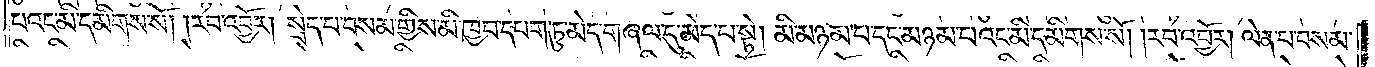པའང་མི་དམིགས་སོ། །རབ་འབྱོར། སྲེད་པ་བསམ་གྱིས་མི་ཁྱབ་དཔག་ཏུ་མེད་གཞལ་དུ་མེད་པ་སྟེ། མི་མཉམ་པ་དང་མཉམ་པའང་མི་དམིགས་སོ། །རབ་འབྱོར། ལེན་པ་བསམ་
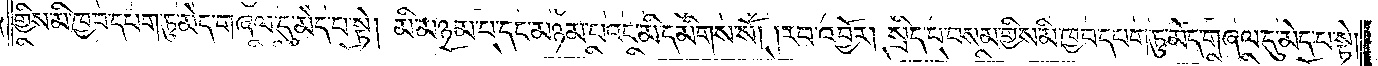གྱིས་མི་ཁྱབ་དཔག་ཏུ་མེད་གཞལ་དུ་མེད་པ་སྟེ། མི་མཉམ་པ་དང་མཉམ་པའང་མི་དམིགས་སོ། །རབ་འབྱོར། སྲིད་པ་བསམ་གྱིས་མི་ཁྱབ་དཔག་ཏུ་མེད་གཞལ་དུ་མེད་པ་སྟེ།
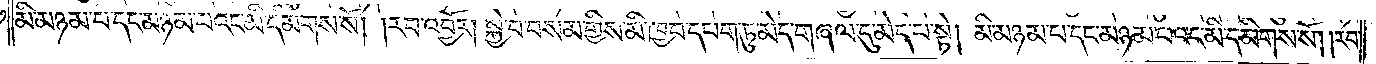མི་མཉམ་པ་དང་མཉམ་པའང་མི་དམིགས་སོ། །རབ་འབྱོར། སྐྱེ་བ་བསམ་གྱིས་མི་ཁྱབ་དཔག་ཏུ་མེད་གཞལ་དུ་མེད་པ་སྟེ། མི་མཉམ་པ་དང་མཉམ་པའང་མི་དམིགས་སོ། །རབ་
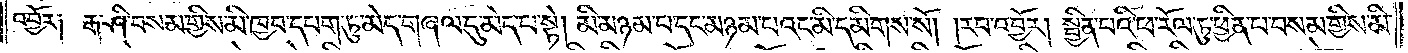འབྱོར༑ རྒ་ཤི་བསམ་གྱིས་མི་ཁྱབ་དཔག་ཏུ་མེད་གཞལ་དུ་མེད་པ་སྟེ། མི་མཉམ་པ་དང་མཉམ་པའང་མི་དམིགས་སོ། །རབ་འབྱོར། སྤྱན་པའི་ཕ་རོལ་ཏུ་ཕྱིན་པ་བསམ་གྱིས་མི་
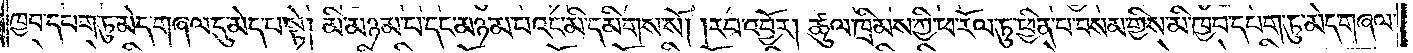ཁྱབ་དཔག་ཏུ་མེད་གཞལ་དུ་མེད་པ་སྟེ། མི་མཉམ་པ་དང་མཉམ་པའང་མི་དམིགས་སོ། །རབ་འབྱོར། ཚུལ་ཁྲིམས་ཀྱི་ཕ་རོལ་ཏུ་ཕྱིན་པ་བསམ་གྱིས་མི་ཁྱབ་དཔག་ཏུ་མེད་གཞལ་
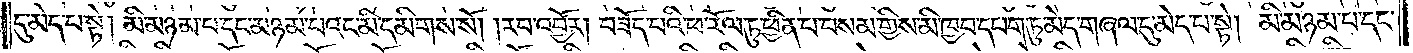དུ་མེད་པ་སྟེ། མི་མཉམ་པ་དང་མཉམ་པའང་མི་དམིགས་སོ། །རབ་འབྱོར། བཟོད་པའི་ཕ་རོལ་ཏུ་ཕྱིན་པ་བསམ་གྱིས་མི་ཁྱབ་དཔག་ཏུ་མེད་གཞལ་དུ་མེད་པ་སྟེ། མི་མཉམ་པ་དང་
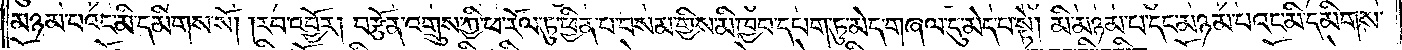མཉམ་པའང་མི་དམིགས་སོ། །རབ་འབྱོར། བརྩོན་འགྲུས་ཀྱི་ཕ་རོལ་ཏུ་ཕྱིན་པ་བསམ་གྱིས་མི་ཁྱབ་དཔག་ཏུ་མེད་གཞལ་དུ་མེད་པ་སྟེ། མི་མཉམ་པ་དང་མཉམ་པའང་མི་དམིགས་
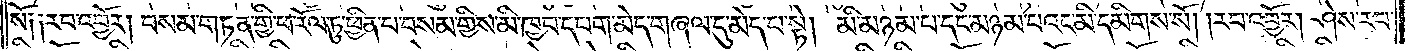སོ། །རབ་འབྱོར། བསམ་གཏན་གྱི་ཕ་རོལ་ཏུ་ཕྱིན་པ་བསམ་གྱིས་མི་ཁྱབ་དཔག་མེད་གཞལ་དུ་མེད་པ་སྟེ། མི་མཉམ་པ་དང་མཉམ་པའང་མི་དམིགས་སོ། །རབ་འབྱོར། ཤེས་རབ་
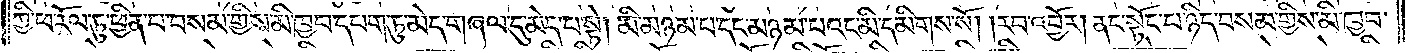ཀྱི་ཕ་རོལ་ཏུ་ཕྱིན་པ་བསམ་གྱིས་མི་ཁྱབ་དཔག་ཏུ་མེད་གཞལ་དུ་མེད་པ་སྟེ། མི་མཉམ་པ་དང་མཉམ་པའང་མི་དམིགས་སོ། །རབ་འབྱོར། ནང་སྟོང་པ་ཉིད་བསམ་གྱིས་མི་ཁྱབ་
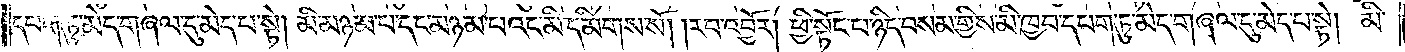དཔག་ཏུ་མེད་གཞལ་དུ་མེད་པ་སྟེ། མི་མཉམ་པ་དང་མཉམ་པའང་མི་དམིགས་སོ། །རབ་འབྱོར། ཕྱི་སྟོང་པ་ཉིད་བསམ་གྱིས་མི་ཁྱབ་དཔག་ཏུ་མེད་གཞལ་དུ་མེད་པ་སྟེ། མི་
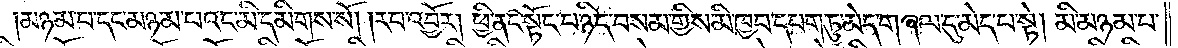མཉམ་པ་དང་མཉམ་པའང་མི་དམིགས་སོ། །རབ་འབྱོར། ཕྱི་ནང་སྟོང་པ་ཉིད་བསམ་གྱིས་མི་ཁྱབ་དཔག་ཏུ་མེད་གཞལ་དུ་མེད་པ་སྟེ། མི་མཉམ་པ་
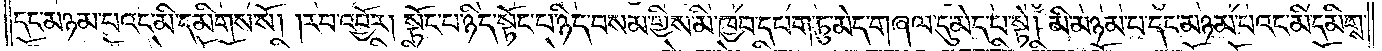དང་མཉམ་པའང་མི་དམིགས་སོ། །རབ་འབྱོར། སྟོང་པ་ཉིད་སྟོང་པ་ཉིད་བསམ་གྱིས་མི་ཁྱབ་དཔག་ཏུ་མེད་གཞལ་དུ་མེད་པ་སྟེ། མི་མཉམ་པ་དང་མཉམ་པའང་མི་དམིགས་
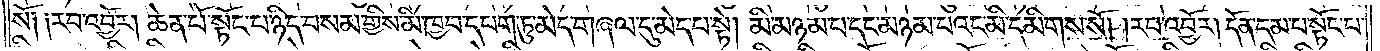སོ། །རབ་འབྱོར། ཆེན་པོ་སྟོང་པ་ཉིད་བསམ་གྱིས་མི་ཁྱབ་དཔག་ཏུ་མེད་གཞལ་དུ་མེད་པ་སྟེ། མི་མཉམ་པ་དང་མཉམ་པའང་མི་དམིགས་སོ། །རབ་འབྱོར། དོན་དམ་པ་སྟོང་པ་
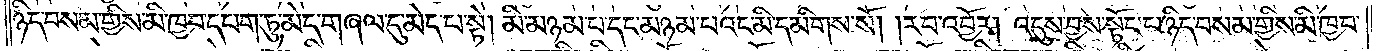ཉིད་བསམ་གྱིས་མི་ཁྱབ་དཔག་ཏུ་མེད་གཞལ་དུ་མེད་པ་སྟེ། མི་མཉམ་པ་དང་མཉམ་པའང་མི་དམིགས་སོ། །རབ་འབྱོར། འདུས་བྱས་སྟོང་པ་ཉིད་བསམ་གྱིས་མི་ཁྱབ་
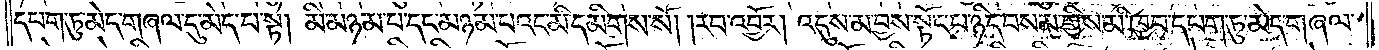དཔག་ཏུ་མེད་གཞལ་དུ་མེད་པ་སྟེ། མི་མཉམ་པ་དང་མཉམ་པའང་མི་དམིགས་སོ། །རབ་འབྱོར། འདུས་མ་བྱས་སྟོང་པ་ཉིད་བསམ་གྱིས་མི་ཁྱབ་དཔག་ཏུ་མེད་གཞལ་
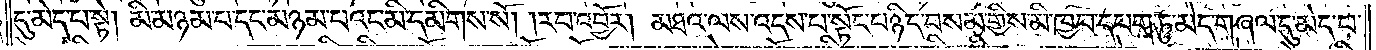དུ་མེད་པ་སྟེ། མི་མཉམ་པ་དང་མཉམ་པའང་མི་དམིགས་སོ། །རབ་འབྱོར། མཐའ་ལས་འདས་པ་སྟོང་པ་ཉིད་བསམ་གྱིས་མི་ཁྱབ་དཔག་ཏུ་མེད་གཞལ་དུ་མེད་པ་
